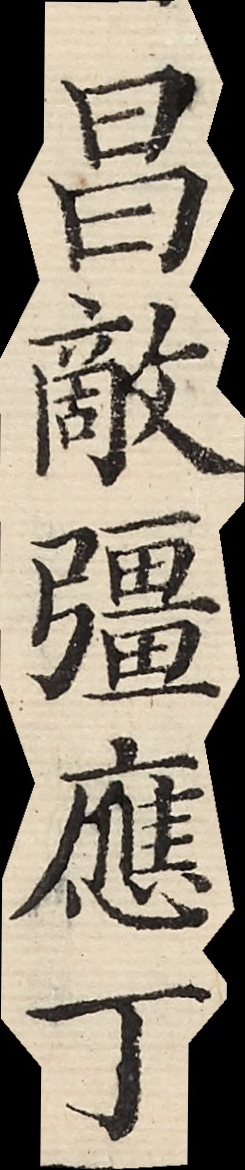昌敵彊應丁
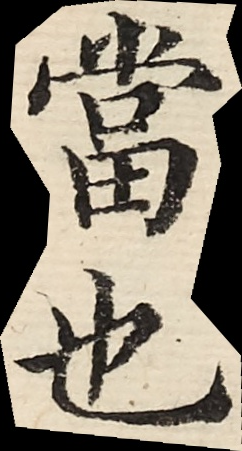當也
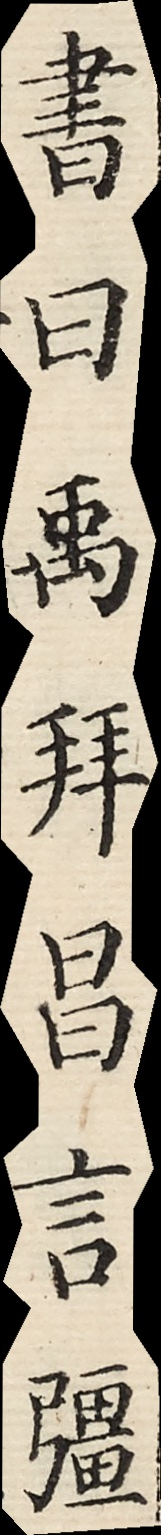書曰禹拜昌言彊
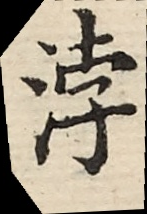浡
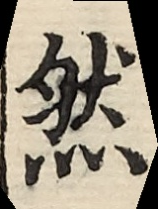然
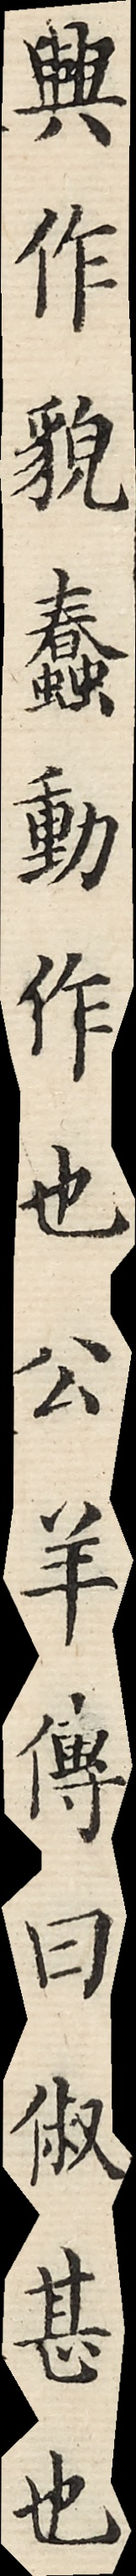興作貌蠢動作也公羊傳曰俶甚也
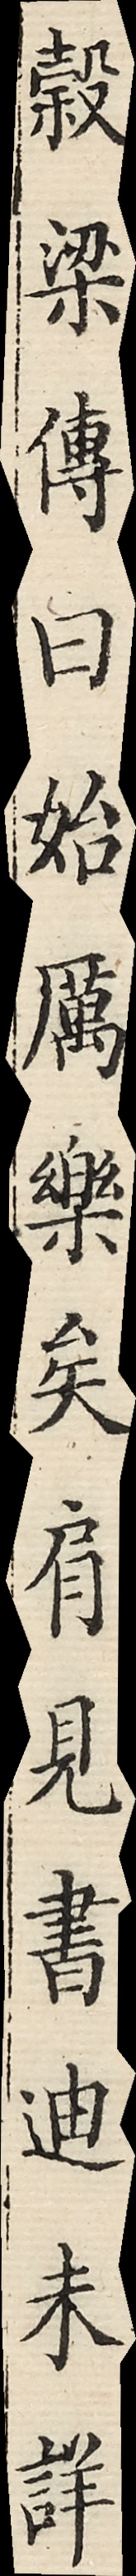穀梁傳曰始厲樂矣肩見書迪未詳
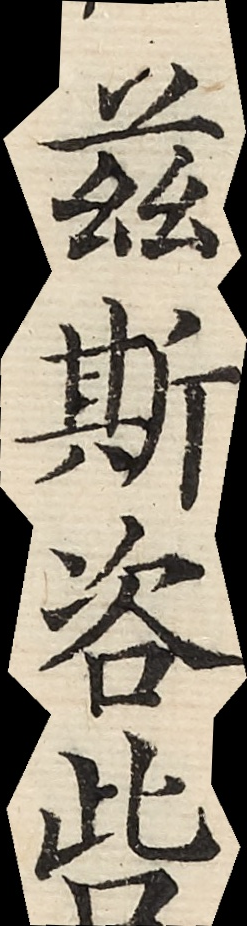茲斯咨呰
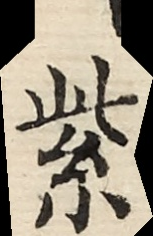紫
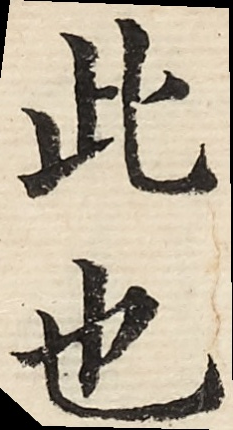此也
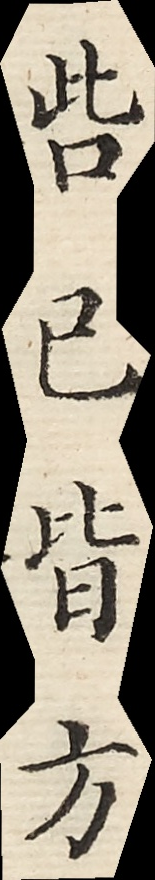呰已皆方
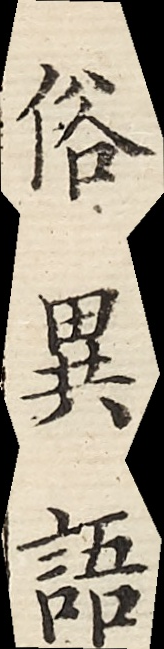俗異語
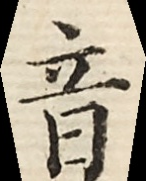音
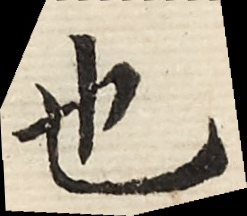也
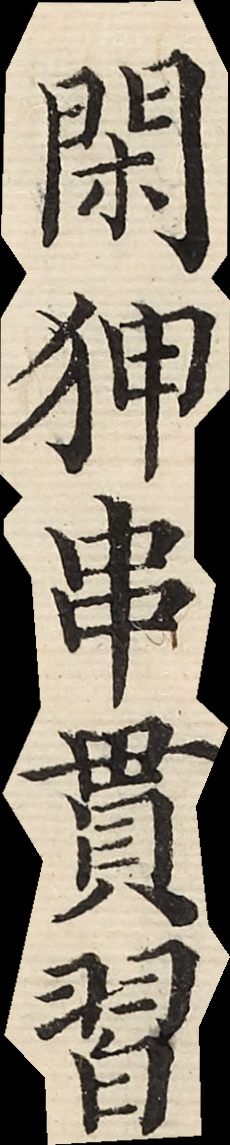閑狎串貫習
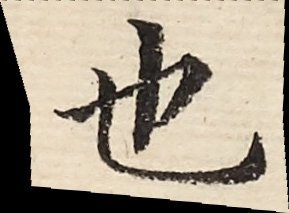也
